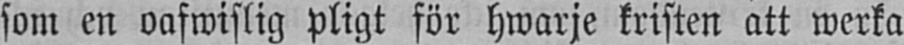som en oafwislig pligt för hwarje kristen att werka
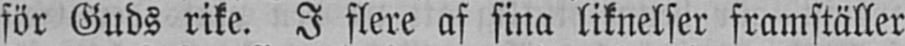för Guds rike. I flere af sina liknelser framställer
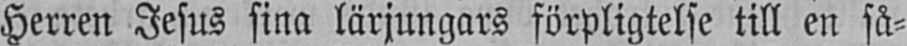Herren Jesus sina lärjungars förpligtelse till en så-
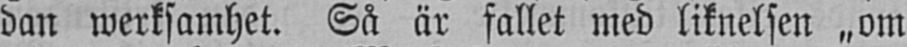dan werksamhet. Så är fallet med liknelsen „om
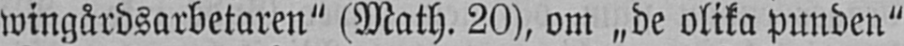wingårdsarbetaren" (Math. 20), om „de olika punden"
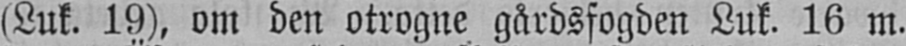(Luk. 19), om den otrogne gårdsfogden Luk. 16 m.
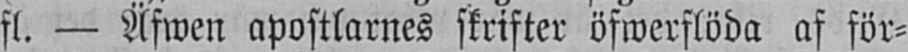fl. — Äfwen apostlarnes skrifter öfwerflöda af för-
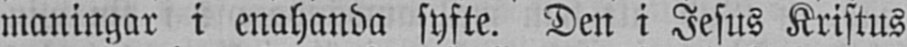maningar i enahanda syfte. Den i Jesus Kristus
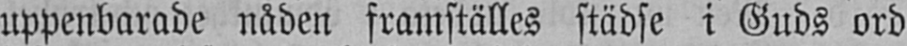uppenbarade nåden framställes städse i Guds ord
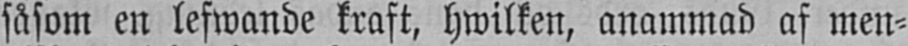såsom en lefwande kraft, hwilken, anammad af men-
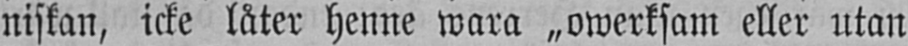niskan, icke låter henne wara „owerksam eller utan
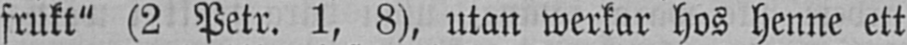frukt" (2 Petr. 1, 8), utan werkar hos henne ett
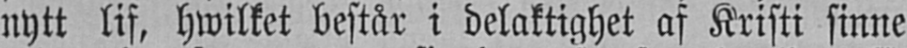nytt lif, hwilket består i delaktighet af Kristi sinne
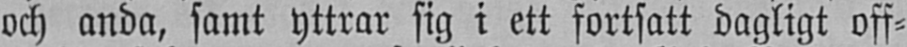och anda, samt yttrar sig i ett fortsatt dagligt off-
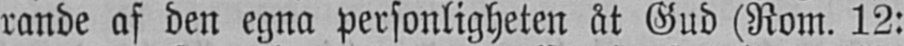rande af den egna personligheten åt Gud (Rom. 12:
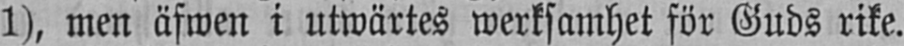1), men äfwen i utwärtes werksamhet för Guds rike.
